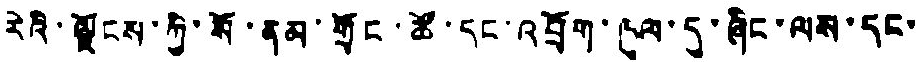རེའི་ལྗོངས་ཀྱི་སོ་ནམ་གྲོང་ཚོ་དང་འབྲོག་ཁུལ་དུ་ཞིང་ལས་དང་
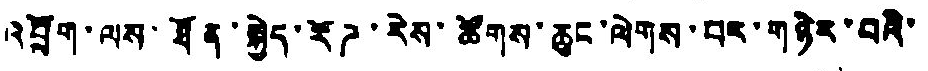འབྲོག་ལས་ཐོན་སྐྱེད་རོཌ་རེས་ཚོགས་ཆུང་ལེགས་པར་གཉིར་བའི་
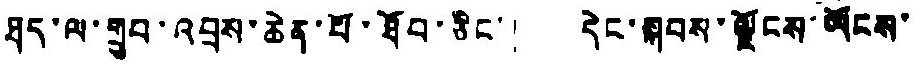ཐད་ལ་གྲུབ་འབྲས་ཆེན་པོ་ཐོབ་ཅིང་། དེང་སྐབས་ལྗོངས་ཡོངས་
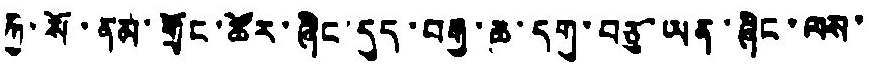ཀྱི་སོ་ནམ་གྲང་ཚོར་ཞིང་དུད་བརྒྱ་ཆ་དགུ་བཅུ་ཡན་ཞིང་ལས་
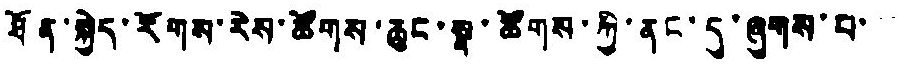ཐོན་སྐྱེད་རོགས་རེས་ཚོགས་ཆུང་སྣ་ཚོགས་ཀྱི་ནང་དུ་ཞུགས་པ་་་
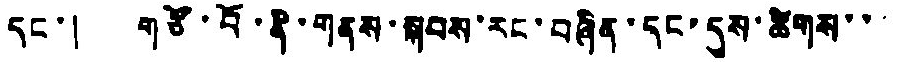དང་། གཙོ་བོ་ནི་གནས་སྐབས་རང་བཞིན་དང་དུས་ཚིགས་་་
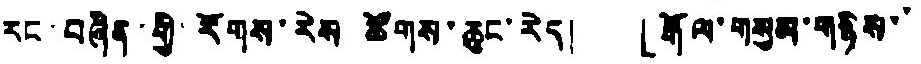རང་བཞིན་གྱི་རོགས་རེས ཚོགས་ཆུང་རེད། 「རྒོལ་གསུམ་གཉིས་་་
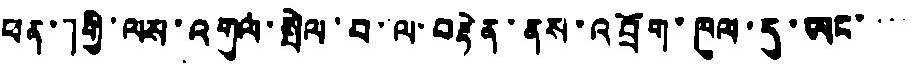ཕན་」གྱི་ལས་འགུལ་སྤེལ་བ་ལ་བརྟེན་ནས་འབྲོག་ཁུལ་དུ་ཨང་་་་
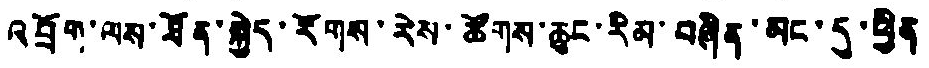འབྲོག་ལས་ཐོན་སྐྱེད་རོགས་རེས་ཚོགས་ཆུང་རིམ་བཞིན་མང་དུ་ཕྱིན
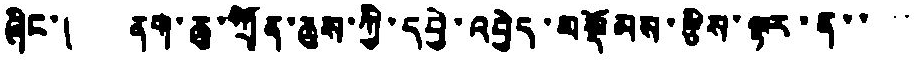ཞིང་། ནག་ཆུ་ཀྲོན་ཆུས་ཀྱི་དབྱེ་འབྱེད་བསྡོམས་རྩིས་ལྟར་ན་་་་
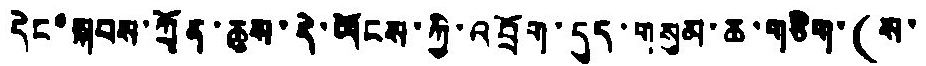དེང་སྐབས་ཀྲོན་ཆུས་དེ་ཡོངས་ཀྱི་འབྲོག་དུད་གསུམ་ཆ་གཅིག་(ས་
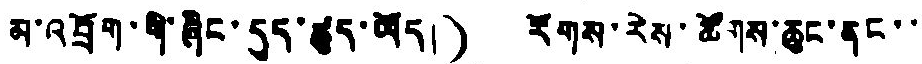མ་འབྲོག་གི་ཞིང་དུད་ཚུད་ཡོད།) རོགས་རེས་ཚོགས་ཆུང་ནང་་
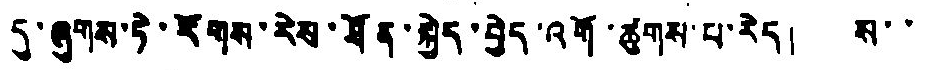དུ་ཞུགས་ཏེ་རོགས་རེས་ཐོན་སྐྱེད་བྱེད་འགོ་ཚུགས་པ་རེད། ས་་
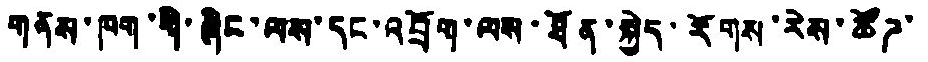གནས་ཁག་གི་ཞིང་ལས་དང་འབྲོག་ལས་ཐོན་སྐྱེད་རོགས་རེས་ཚོཌ་
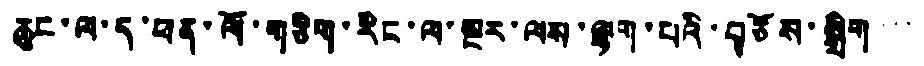ཆུང་ལ་ད་ཕན་ལོ་གཅིག་རིང་ལ་སྔར་ལས་ལྷག་པའི་བཅོས་སྒྲིག་་་
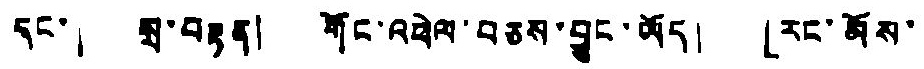དང་། སྲ་བརྟན། གོང་འཕེལ་བཅས་བྱུང་ཡོད། 「རང་མོས་
